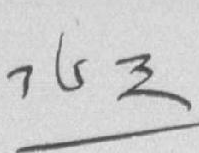༡༦༣
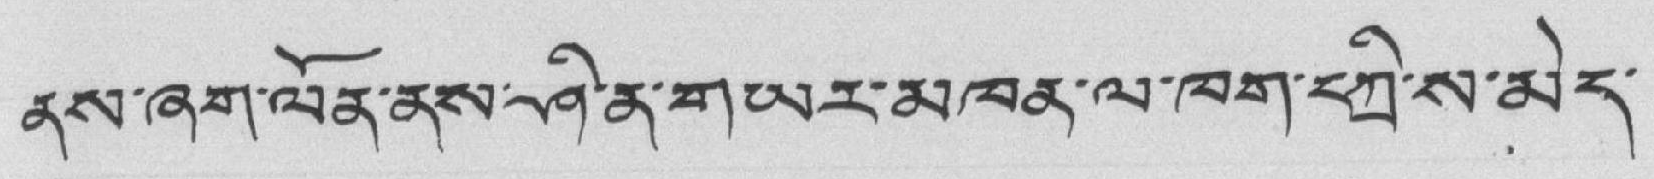ནས་ཞག་ལོན་ནས་ཤི་ན་གཡར་མཁན་ལ་ཁག་དཀྲི་ས་མེད་
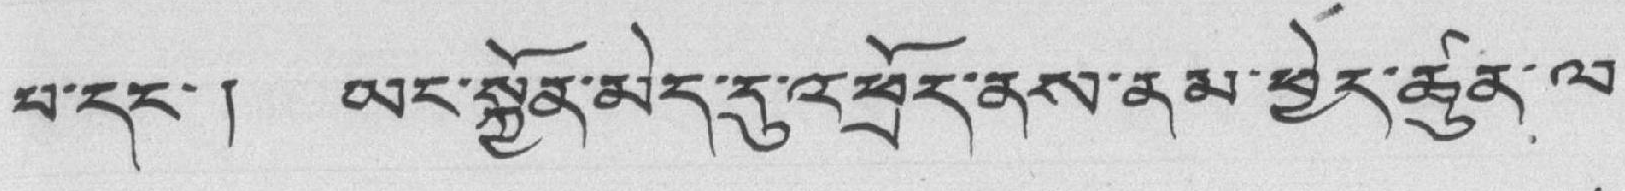པ་དང་། ཡང་སྐྱོན་མེད་དུ་འཕྲོད་ནས་ནམ་ཕྱེད་ཚུན་ལ་
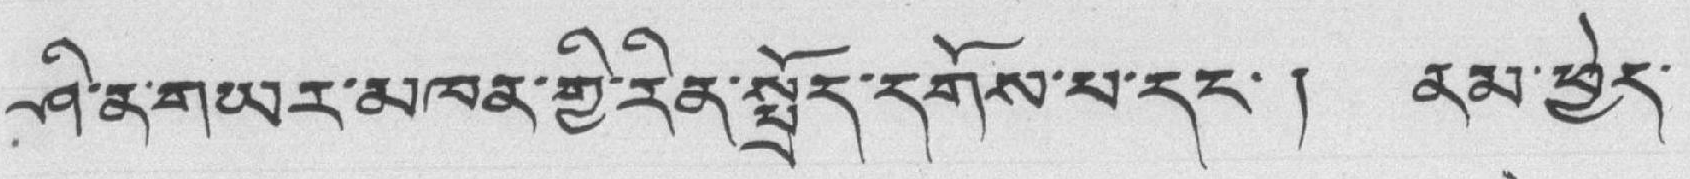ཤི་ན་གཡར་མཁན་གྱི་རིན་སྤྲོད་དགོས་པ་དང་། ནམ་ཕྱེད་
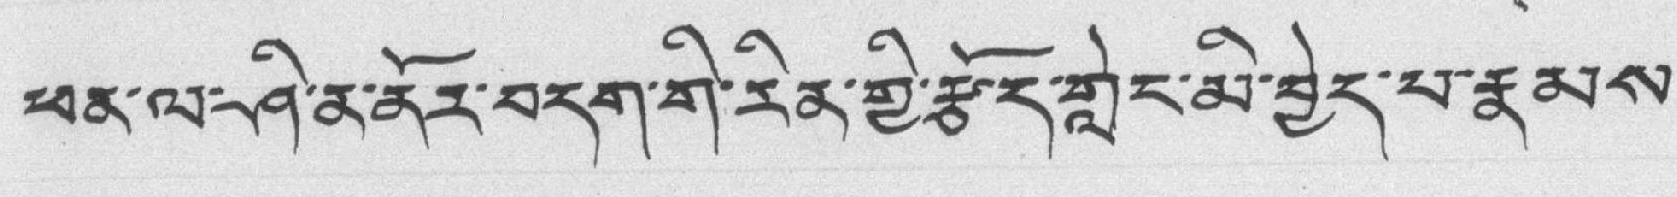ཕན་ལ་ཤི་ན་ནོར་བདག་གི་རིན་གྱི་རྩོད་གླེང་མི་བྱེད་པ་རྣམས་
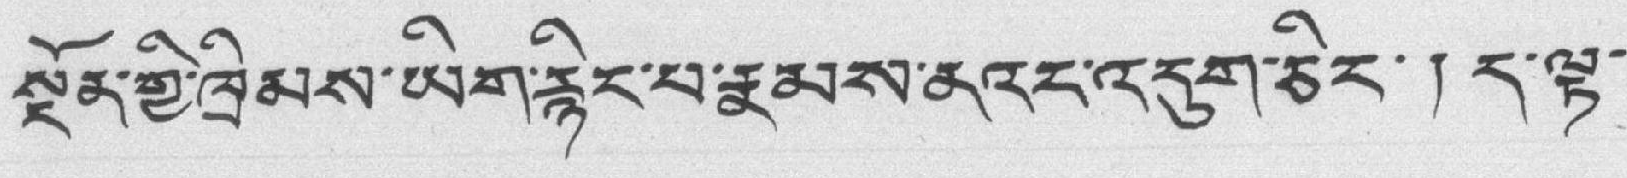སྔོན་གྱི་ཁྲིམས་ཡིག་རྙིང་པ་རྣམས་ནའང་འདུག་ཅིང་ ། ད་ལྟ་
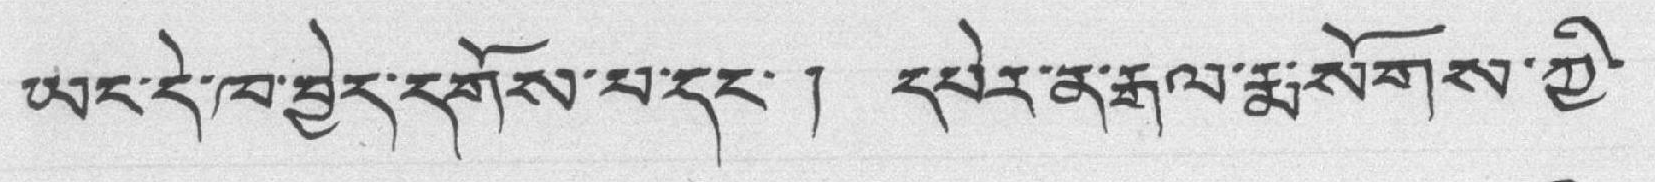ཡང་དེ་ཁ་བྱེད་དགོས་པ་དང་ ། དཔེར་ན་རྒལ་རྨ་སོགས་ཀྱི་
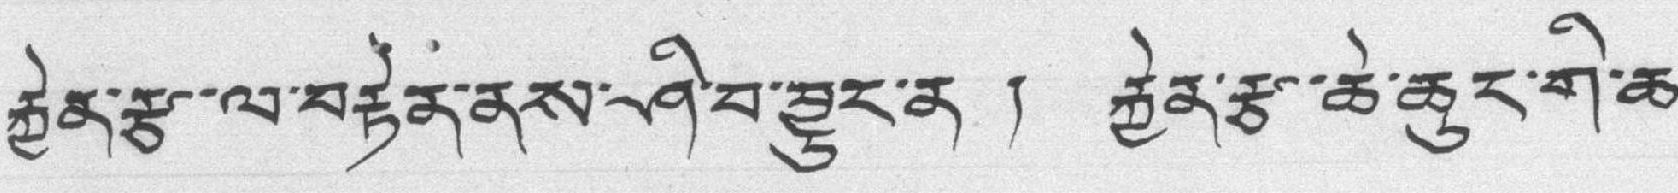རྐྱེན་རྩ་ལ་བརྟེན་ནས་ཤི་བ་བྱུང་ན ། རྐྱེན་རྩ་ཆེ་ཆུང་གི་ཆ་
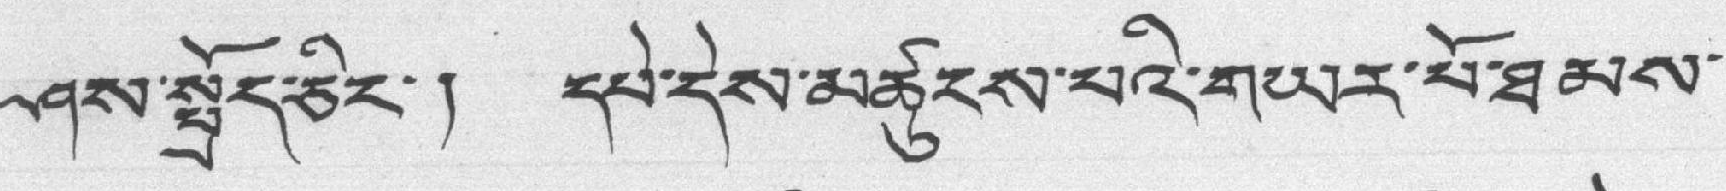ཤས་སྤྲོད་ཅིང་། དཔེ་དེས་མཚུངས་པའི་གཡར་པོ་ཐམས་
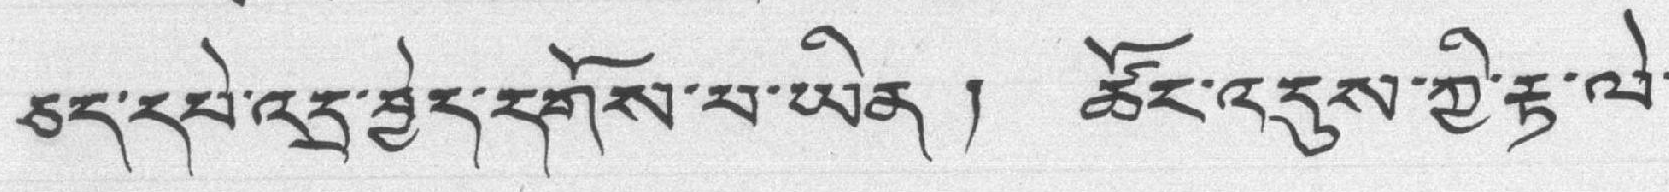ཅད་དཔེ་འདྲ་བྱེད་དགོས་པ་ཡིན ། ཚོང་འདུས་ཀྱི་རྟ་ལེ་
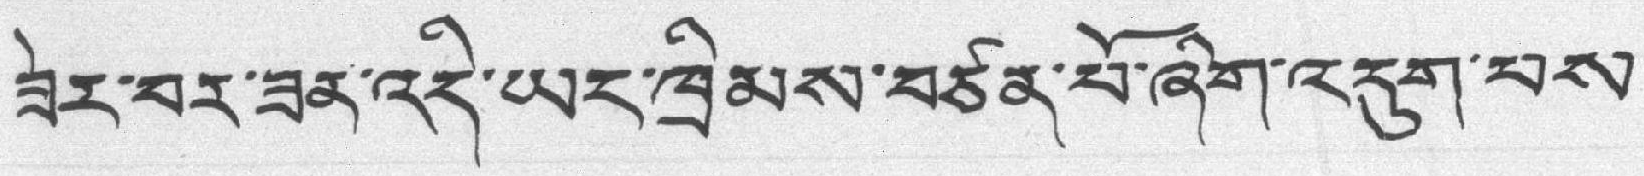ཟེར་བར་ཟན་འདི་ཡང་ཁྲིམས་བཙན་པོ་ཞིག་འདུག་པས་
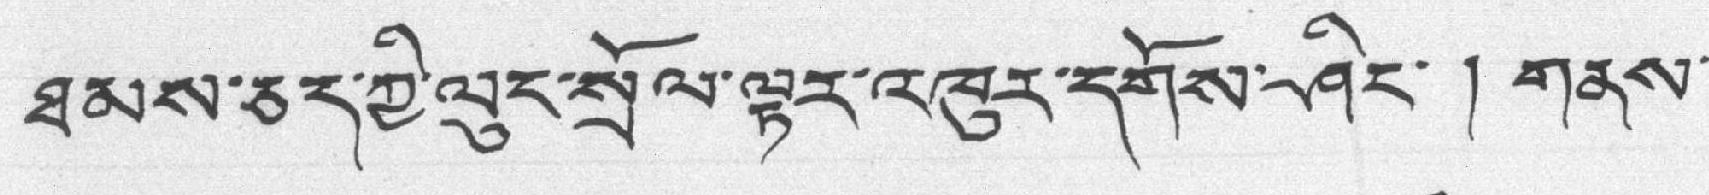ཐམས་ཅད་ཀྱི་ལུང་སྲོལ་ལྟར་འཁུར་དགོས་ཤིང་ ། གནས་
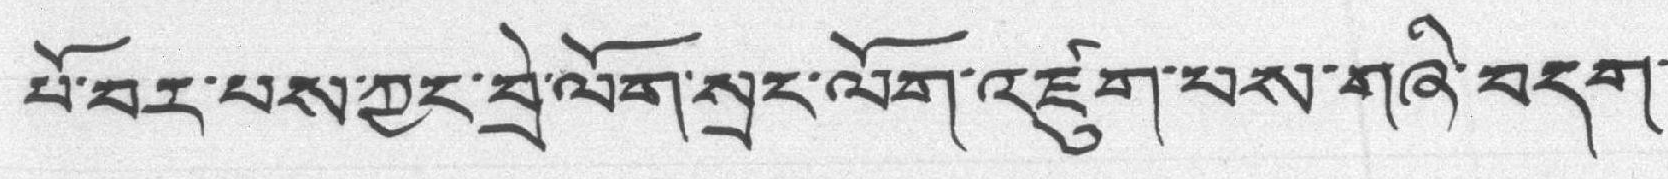པོ་བར་པས་ཀྱང་བྲེ་ལོག་སྲང་ལོག་འཛུག་པས་གཞི་བདག་
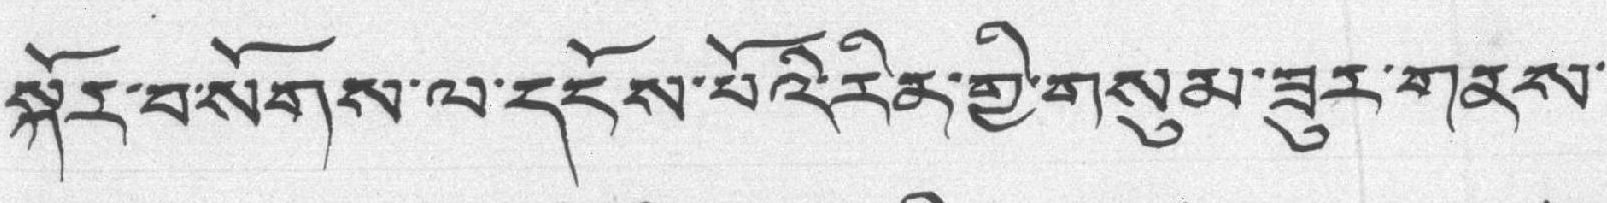སྐོར་བ་སོགས་ལ་དངོས་པོའི་རིན་གྱི་གསུམ་ཟུར་གནས་
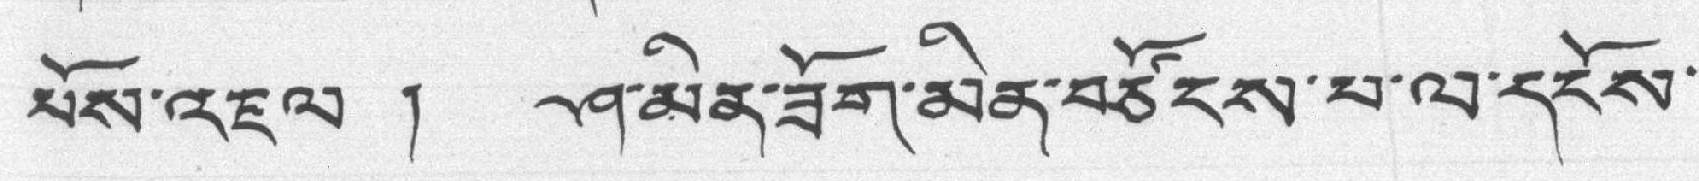པོས་འཇལ ། ཤ་མིན་ཟོག་མིན་བཙོངས་པ་ལ་དངོས་
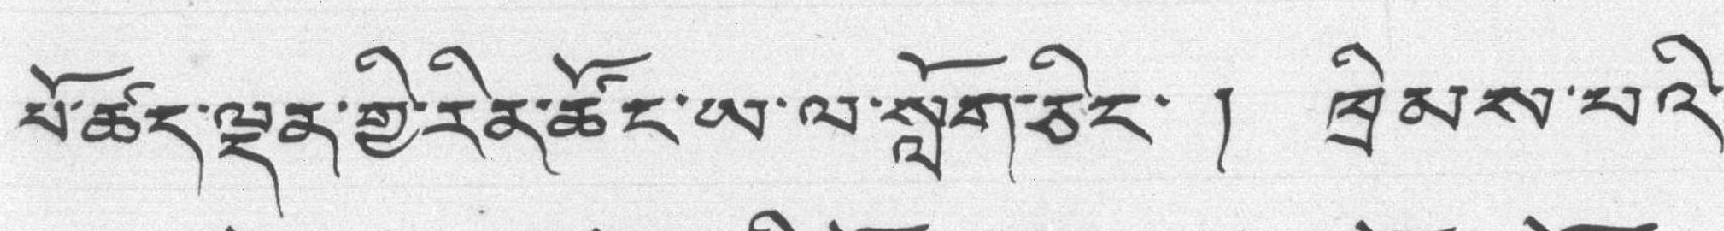པོ་ཚད་ལྡན་གྱི་རིན་ཚོང་ཡ་ལ་སློག་ཅིང་ ། ཁྲིམས་པའི་
